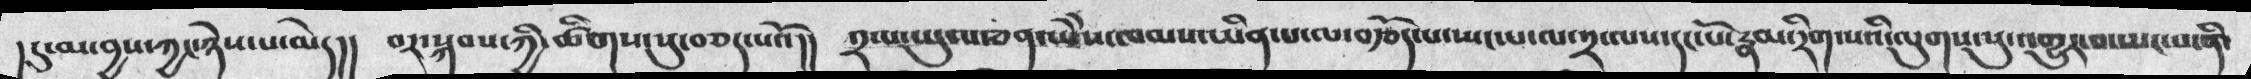།དུ་མ་བྱས་ཀྱང་ཉེས་པ་མེད།།   བར་སྐབས་ཀྱི་ཚིགས་སུ་བཅད་པའོ།།   ༢་པ་ཡུལ་ཅན་ཡེེས་ཁམས་ཡིན་པ་ལ་བརྩོད་པ་ཡང་པ་ལ་༢་ལས་དང་པོ་རྣམ་རིག་པའི་ལུགས་སུ་འགྱུར་བ་ཡང་པ་ནི་
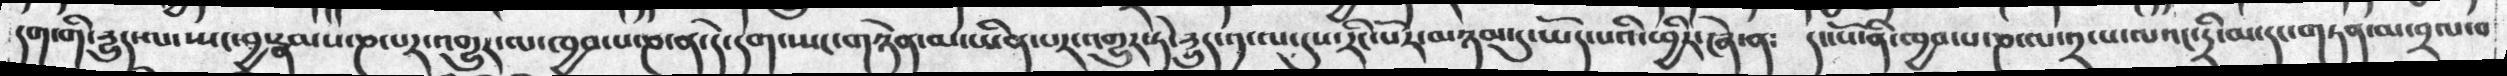དག་གི་རྱུད་ལ་ཡང་བྱ་རྣམས་ཎ་པར་འགྱུར་ལ་ཁྱབ་པ་ཎ་དེ་དག་ཡང་གཉེན་མ་ཡིན་པར་འགྱུར་ཏེ་རྱུད་༡་ལ་དུས་རིང་པོར་མཉམ་དུ་ཡོད་པའི་ཕྱིར་ཞེ་ན༴ དང་པོ་ནི་ཁྱབ་པ་ཎ་ལ་༢་པ་ལའང་དྲི་མ་དང་གཏན་མ་བྲལ་བ
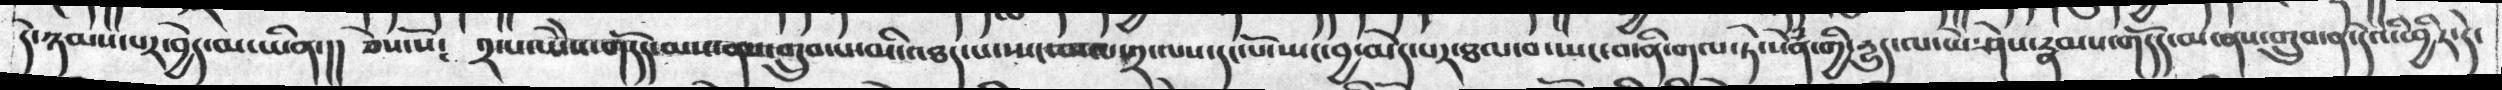དེ་ཉམས་པར་བྱེད་མ་ཡིན་།། ཅེས་སོ༴ ༢་པ་ཡཻས་གདོད་མས་ནས་གྲུབ་པ་མི་འཐད་པ་ཡང་བསལ་༢་ལས་དང་པོ་ཡང་བྱ་མེད་པར་ཐལ་བ་ཡང་བ་ནི་གལ་ཏེ་སེཾན་གྱི་རྱུད་ལ་ཡེ་ཤེས་རྣམས་གདོད་མ་ནས་གྲུབ་ན་དེའི་ཕྱིར་དེ་
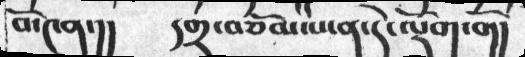བོ་༤ན་།། དགྲ་བཅོམ་པ་ན་དེ་ལྡོག་གོ།
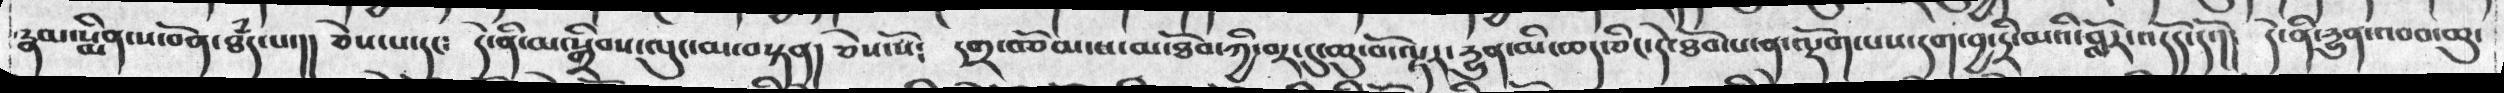རྣམ་སྨིན་ས་བོན་ཐཾད་པ་།། ཅེས་པ་དང༴ དེ་ནི་མ་སྒྲིབས་ལུང་མ་བསྟན། ཅེས་སོ༴ དགྲ་བཅོམ་པ་མ་ཐོབ་ཀྱི་བར་དུ་ཆུ་བོ་ལྟར་རྱུན་མི་ཆད་ཅིང་དེ་ཐོབ་པ་ན་ལྡོག་པས་དག་བྱ་དྲི་མའི་བློར་འདོད་དོ་།། དེ་ནི་རྱུན་འབབ་ཆུ་
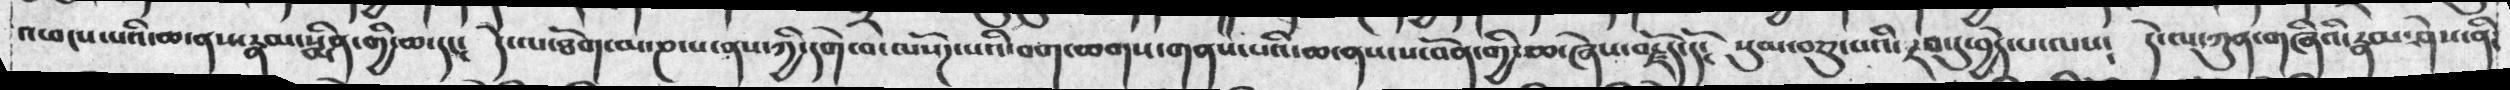འཕངས་པའི་ཆ ནས་རྣམ་སྨིན་གྱི་ཆ་དང༴ དེ་ལ་ཐོག་མ་ཎ་པ་ནས་ཀྱི་དགེ་བ་ལསོཌ་པའི་བག་ཆགས་གནས་པའི་ཆ་ནས་ས་བོན་གྱི་ཆ་ཞེས་བརྗོད་དོ༴ སུམ་བཅུ་པའི་རབ་དུ་བྱེད་པ་ལས༴ དེ་ལ་ཀུན་གཞིའི་རྣམ་ཤེས་ནི༴
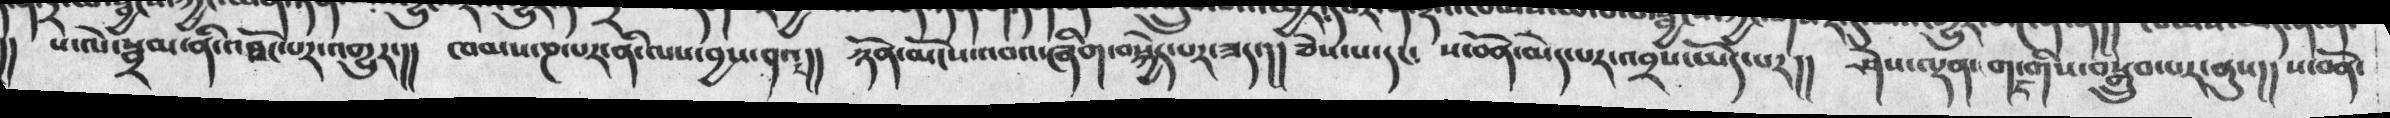།།  ས་ལེ་སྦྲམ་ནི་མཐོང་པར་འགྱུར་།།  ཁམས་ཎ་པར་ནི་ལས་བྱས་ནའང།།  ཉོན་མོངས་འབའ་ཞིག་བསྐྱེད་པར་ཟད་།།  ཅེས་པ་དང༴   ས་བོན་མེད་པར་འབྲས་ཡོད་པར།།   ཤེས་ལྡན་གང་གིས་བསྒྲུབ་པར་ནུས།།   ས་བོན་
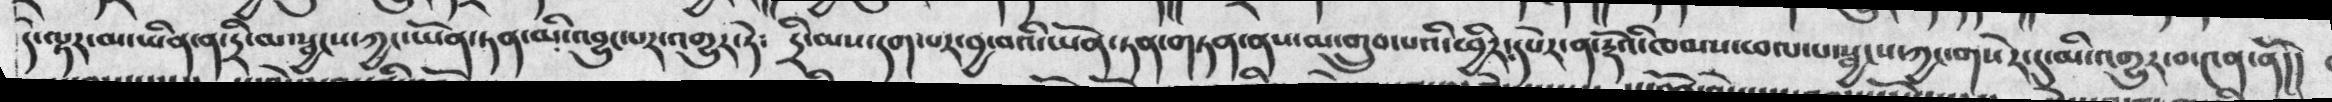དེ་ལྟར་མ་ཡིན་ན་དྲི་མ་སྦྱངས་ཀྱང་ཡོན་ཏན་མི་འབྱུང་པར་ཏེ༴  དྲི་མས་དག་པར་བྱ་བའི་ཡོན་ཏན་གཏན་ནས་མ་གྲུབ་པའི་ཕྱིར་དཔེར་ན་རྡོའི་ཁམས་ཕལ་པ་སྦྱངས་ཀྱང་གསེར་དུ་མི་འགྱུར་བ་༤ན་ནོ།།
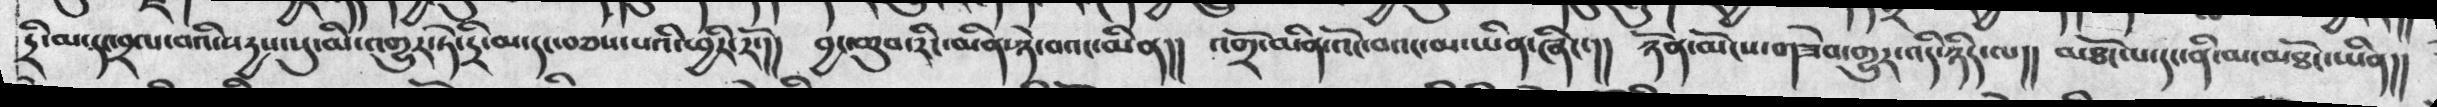དྲི་མ་དང་བྲལ་བའི་སདྱས་སུ་མི་འགྱུར་ཏེ་དྲི་མ་དང་བཅས་པའི་ཕྱིར་རོ་།།  བྱང་ཆུབ་རིང་མིན་ཉེ་བའང་མིན།།  འགྲོ་མིན་འོང་བའང་མ་ཡིན་ཞིང་།།   ཉོན་མོངས་གཟེབ་གྱུར་འདི་ཉིད་ལ།།  མཐོང་པ་དང་མཐོང་ཡིན།།
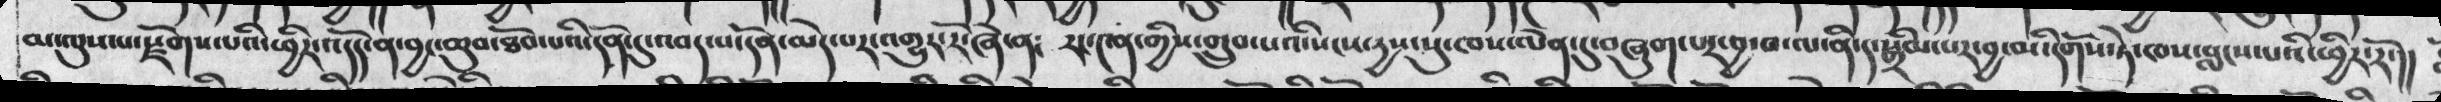མ་ལུས་པ་རྫོགས་པའི་ཕྱིར་འདོད་ན་བྱང་ཆུབ་ཐོབ་པའི་དོན་དུ་འབད་པ་དོན་མེད་པར་འགྱུར་རོ་ཞེ་ན༴  རང་༤ན་གྱིས་གྲུབ་པའི་སངས་དྱས་སུ་ཁས་ལེན་དུ་བཞུག་པར་བྱ་བ་ལ་ནི་ད་སྒྲིམ་པར་བྱ་མི་དགོས་ཏེ་ཁས་བླས་པའི་ཕྱིར་རོ་།།
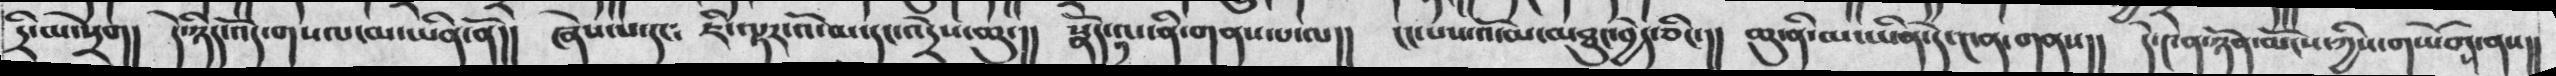དྲི་མ་སྲེག། དེ་ཉིད་འོད་གསལ་མ་ིན་ནོ།། ཞེས་པ་དང༴ ཇི་ལྟར་འོ་མ་དང་འདྲེས་ཆུ་།། སྣོད་ལ་ནི་གནས་པ་ལ།། ངང་པས་འོ་མ་མཐུང་བྱེད་ཅིང་།། ཆུ་ནི་མ་ཡིན་དེ་༤ན་གནས།། དེ་༤ན་ཉོན་མོངས་ཀྱིས་གཡོག་ནས།།
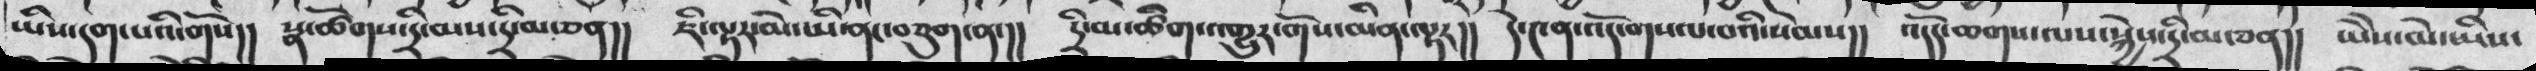ཡིས་དག་པའི་གོས།།   སྣ་ཚོགས་དྲི་མས་དྲི་མ་ཅན།།   ཇི་ལྟར་མེ་ཡི་ནང་བཅུག་ན་།།   དྲི་མ་ཚིག་འགྱུར་གོས་མིན་ལྟར།།   དེ་༤ན་འོད་གསལ་བའི་སེམས།།   འདོད་ཆགས་ལས་སྐྱེས་དྲི་མ་ཅན།།  ཡེེས་མེ་ཡིས་
